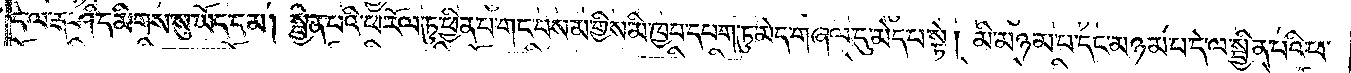དེ་ལ་རྒ་ཤི་དམིགས་སུ་ཡོད་དམ། སྦྱིན་པའི་ཕ་རོལ་ཏུ་ཕྱིན་པ་གང་བསམ་གྱིས་མི་ཁྱབ་དཔག་ཏུ་མེད་གཞལ་དུ་མེད་པ་སྟེ། མི་མཉམ་པ་དང་མཉམ་པ་དེ་ལ་སྦྱིན་པའི་ཕ་
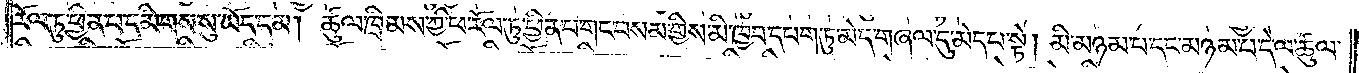རོལ་ཏུ་ཕྱིན་པ་དམིགས་སུ་ཡོད་དམ། ཚུལ་ཁྲིམས་ཀྱི་ཕ་རོལ་ཏུ་ཕྱིན་པ་གང་བསམ་གྱིས་མི་ཁྱབ་དཔག་ཏུ་མེད་གཞལ་དུ་མེད་པ་སྟེ། མི་མཉམ་པ་དང་མཉམ་པ་དེ་ལ་ཚུལ་
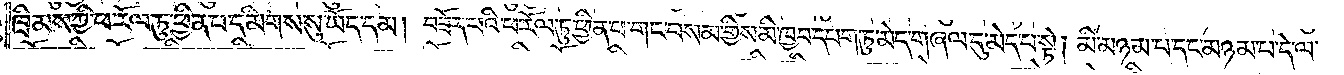ཁྲིམས་ཀྱི་ཕ་རོལ་ཏུ་ཕྱིན་པ་དམིགས་སུ་ཡོད་དམ། བཟོད་པའི་ཕ་རོལ་ཏུ་ཕྱིན་པ་གང་བསམ་གྱིས་མི་ཁྱབ་དཔག་ཏུ་མེད་གཞལ་དུ་མེད་པ་སྟེ། མི་མཉམ་པ་དང་མཉམ་པ་དེ་ལ་
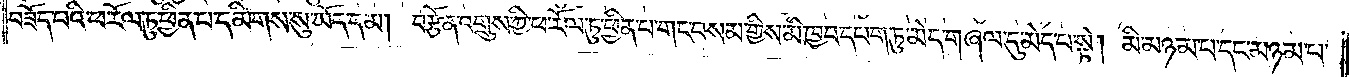བཟོད་པའི་ཕ་རོལ་ཏུ་ཕྱིན་པ་དམིགས་སུ་ཡོད་དམ། བརྩོན་འགྲུས་ཀྱི་ཕ་རོལ་ཏུ་ཕྱིན་པ་གང་བསམ་གྱིས་མི་ཁྱབ་དཔག་ཏུ་མེད་གཞལ་དུ་མེད་པ་སྟེ། མི་མཉམ་པ་དང་མཉམ་པ་
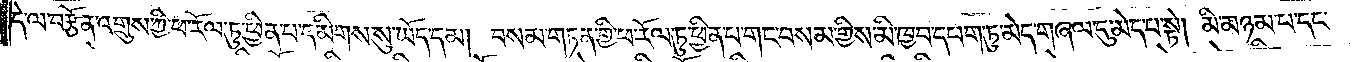དེ་ལ་བརྩོན་འགྲུས་ཀྱི་ཕ་རོལ་ཏུ་ཕྱིན་པ་དམིགས་སུ་ཡོད་དམ། བསམ་གཏན་གྱི་ཕ་རོལ་ཏུ་ཕྱིན་པ་གང་བསམ་གྱིས་མི་ཁྱབ་དཔག་ཏུ་མེད་གཞལ་དུ་མེད་པ་སྟེ། མི་མཉམ་པ་དང་
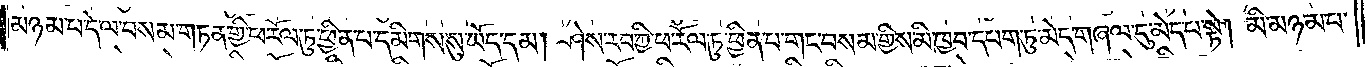མཉམ་པ་དེ་ལ་བསམ་གཏན་གྱི་ཕ་རོལ་ཏུ་ཕྱིན་པ་དམིགས་སུ་ཡོད་དམ། ཤེས་རབ་ཀྱི་ཕ་རོལ་ཏུ་ཕྱིན་པ་གང་བསམ་གྱིས་མི་ཁྱབ་དཔག་ཏུ་མེད་གཞལ་དུ་མེད་པ་སྟེ། མི་མཉམ་པ་
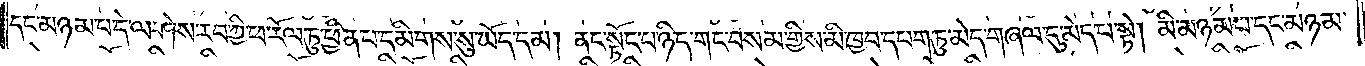དང་མཉམ་པ་དེ་ལ་ཤེས་རབ་ཀྱི་ཕ་རོལ་ཏུ་ཕྱིན་པ་དམིགས་སུ་ཡོད་དམ། ནང་སྟོང་པ་ཉིད་གང་བསམ་གྱིས་མི་ཁྱབ་དཔག་ཏུ་མེད་གཞལ་དུ་མེད་པ་སྟེ། མི་མཉམ་པ་དང་མཉམ་
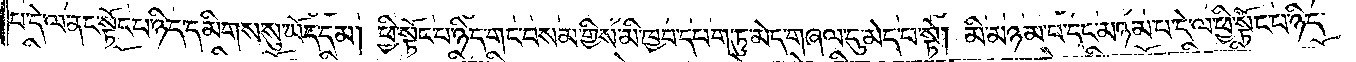པ་དེ་ལ་ནང་སྟོང་པ་ཉིད་དམིགས་སུ་ཡོད་དམ། ཕྱི་སྟོང་པ་ཉིད་གང་བསམ་གྱིས་མི་ཁྱབ་དཔག་ཏུ་མེད་གཞལ་དུ་མེད་པ་སྟེ། མི་མཉམ་པ་དང་མཉམ་པ་དེ་ལ་ཕྱི་སྟོང་པ་ཉིད་
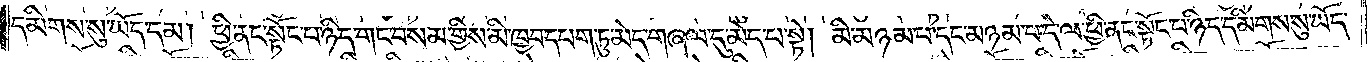དམིགས་སུ་ཡོད་དམ། ཕྱི་ནང་སྟོང་པ་ཉིད་གང་བསམ་གྱིས་མི་ཁྱབ་དཔག་ཏུ་མེད་གཞལ་དུ་མེད་པ་སྟེ། མི་མཉམ་པ་དང་མཉམ་པ་དེ་ལ་ཕྱི་ནང་སྟོང་པ་ཉིད་དམིགས་སུ་ཡོད་
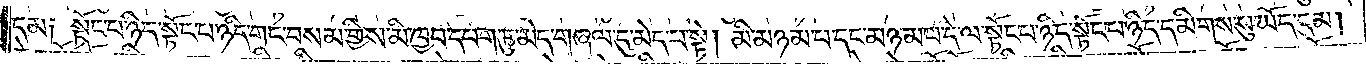དམ༑ སྟོང་པ་ཉིད་སྟོང་པ་ཉིད་གང་བསམ་གྱིས་མི་ཁྱབ་དཔག་ཏུ་མེད་གཞལ་དུ་མེད་པ་སྟེ། མི་མཉམ་པ་དང་མཉམ་པ་དེ་ལ་སྟོང་པ་ཉིད་སྟོང་པ་ཉིད་དམིགས་སུ་ཡོད་དམ།
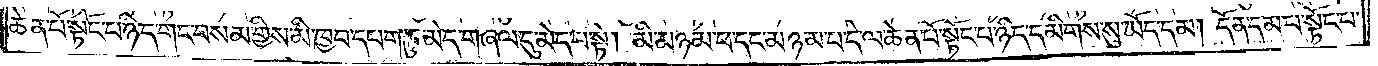ཆེན་པོ་སྟོང་པ་ཉིད་གང་བསམ་གྱིས་མི་ཁྱབ་དཔག་ཏུ་མེད་གཞལ་དུ་མེད་པ་སྟེ། མི་མཉམ་པ་དང་མཉམ་པ་དེ་ལ་ཆེན་པོ་སྟོང་པ་ཉིད་དམིགས་སུ་ཡོད་དམ། དོན་དམ་པ་སྟོང་པ་
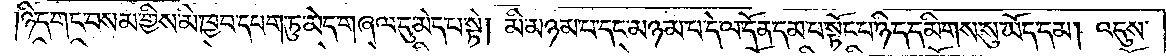ཉིད་གང་བསམ་གྱིས་མི་ཁྱབ་དཔག་ཏུ་མེད་གཞལ་དུ་མེད་པ་སྟེ། མི་མཉམ་པ་དང་མཉམ་པ་དེ་ལ་དོན་དམ་པ་སྟོང་པ་ཉིད་དམིགས་སུ་ཡོད་དམ། འདུས་
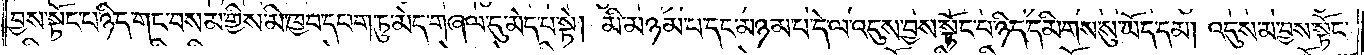བྱས་སྟོང་པ་ཉིད་གང་བསམ་གྱིས་མི་ཁྱབ་དཔག་ཏུ་མེད་གཞལ་དུ་མེད་པ་སྟེ། མི་མཉམ་པ་དང་མཉམ་པ་དེ་ལ་འདུས་བྱས་སྟོང་པ་ཉིད་དམིགས་སུ་ཡོད་དམ། འདུས་མ་བྱས་སྟོང་
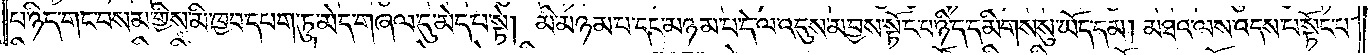པ་ཉིད་གང་བསམ་གྱིས་མི་ཁྱབ་དཔག་ཏུ་མེད་གཞལ་དུ་མེད་པ་སྟེ། མི་མཉམ་པ་དང་མཉམ་པ་དེ་ལ་འདུས་མ་བྱས་སྟོང་པ་ཉིད་དམིགས་སུ་ཡོད་དམ། མཐའ་ལས་འདས་པ་སྟོང་པ་
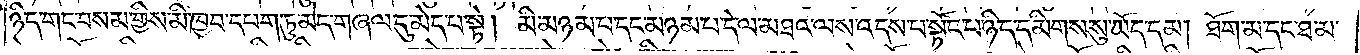ཉིད་གང་བསམ་གྱིས་མི་ཁྱབ་དཔག་ཏུ་མེད་གཞལ་དུ་མེད་པ་སྟེ། མི་མཉམ་པ་དང་མཉམ་པ་དེ་ལ་མཐའ་ལས་འདས་པ་སྟོང་པ་ཉིད་དམིགས་སུ་ཡོད་དམ། ཐོག་མ་དང་ཐ་མ་
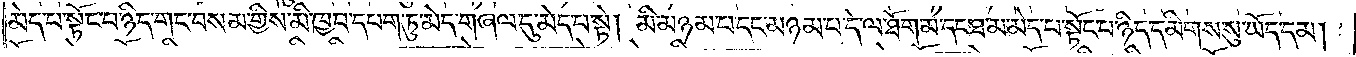མེད་པ་སྟོང་པ་ཉིད་གང་བསམ་གྱིས་མི་ཁྱབ་དཔག་ཏུ་མེད་གཞལ་དུ་མེད་པ་སྟེ། མི་མཉམ་པ་དང་མཉམ་པ་དེ་ལ་ཐོག་མ་དང་ཐ་མ་མེད་པ་སྟོང་པ་ཉིད་དམིགས་སུ་ཡོད་དམ།
